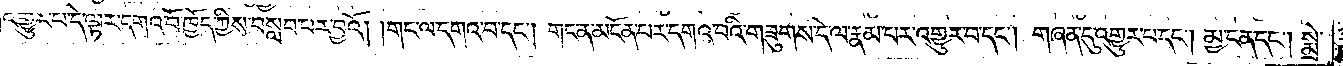འགྱུར་བ་དེ་ལྟར་དགའ་བོ་ཁྱོད་ཀྱིས་བསླབ་པར་བྱའོ། །གང་ལ་དགའ་བ་དང༌། གང་ན་མངོན་པར་དགའ་བའི་གཟུགས་དེ་ལ་རྣམ་པར་འགྱུར་བ་དང༌། གཞན་དུ་འགྱུར་བ་དང༌། མྱ་ངན་དང༌། སྨྲེ་
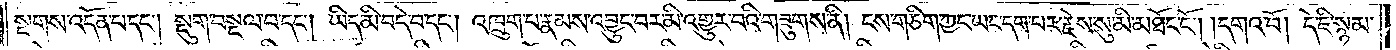སྔགས་འདོན་པ་དང༌། སྡུག་བསྔལ་བ་དང༌། ཡིད་མི་བདེ་བ་དང༌། འཁྲུག་པ་རྣམས་འབྱུང་བར་མི་འགྱུར་བའི་གཟུགས་ནི། ངས་གཅིག་ཀྱང་ཡང་དག་པར་རྗེས་སུ་མི་མཐོང་ངོ༌། །དགའ་བོ། དེ་ཇི་སྙམ་
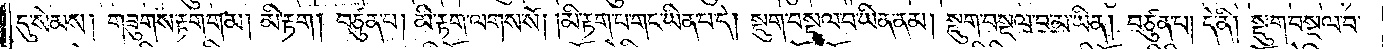དུ་སེམས། གཟུགས་རྟག་གམ། མི་རྟག། བཙུན་པ། མི་རྟག་ལགས་སོ། །མི་རྟག་པ་གང་ཡིན་པ་དེ། སྡུག་བསྔལ་བ་ཡིན་ནམ། སྡུག་བསྔལ་བ་མ་ཡིན། བཙུན་པ། དེ་ནི། སྡུག་བསྔལ་བ་
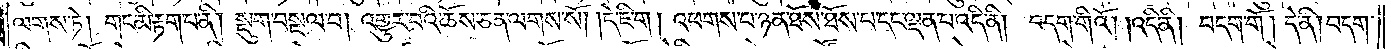ལགས་ཏེ། གང་མི་རྟག་པ་ནི། སྡུག་བསྔལ་བ། འགྱུར་བའི་ཆོས་ཅན་ལགས་སོ། །དེ་ཇི་ག། འཕགས་པ་ཉན་ཐོས་ཐོས་པ་དང་ལྡན་པ་འདི་ནི། བདག་གིའོ། །འདི་ནི། བདག་གོ །དེ་ནི། བདག་
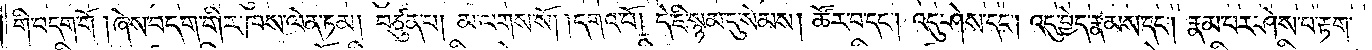གི་བདག་གོ །ཞེས་བདག་གིར་ཁས་ལེན་ཏམ། བཙུན་པ། མ་ལགས་སོ། །དགའ་བོ། དེ་ཇི་སྙམ་དུ་སེམས། ཚོར་བ་དང༌། འདུ་ཤེས་དང༌། འདུ་བྱེད་རྣམས་དང༌། རྣམ་པར་ཤེས་པ་རྟག་
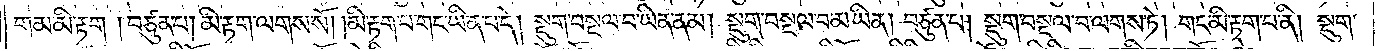གམ་མི་རྟག །བཙུན་པ། མི་རྟག་ལགས་སོ། །མི་རྟག་པ་གང་ཡིན་པ་དེ། སྡུག་བསྔལ་བ་ཡིན་ནམ། སྡུག་བསྔལ་བ་མ་ཡིན། བཙུན་པ། སྡུག་བསྔལ་བ་ལགས་ཏེ། གང་མི་རྟག་པ་ནི། སྡུག་
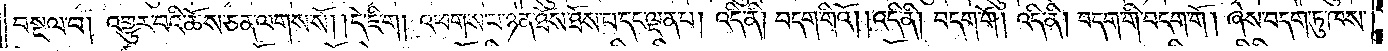བསྔལ་བ། འགྱུར་བའི་ཆོས་ཅན་ལགས་སོ། །དེ་ཇི་ག། འཕགས་པ་ཉན་ཐོས་ཐོས་པ་དང་ལྡན་པ། འདི་ནི། བདག་གིའོ། །འདི་ནི། བདག་གོ །འདི་ནི། བདག་གི་བདག་གོ །ཞེས་བདག་ཏུ་ཁས་
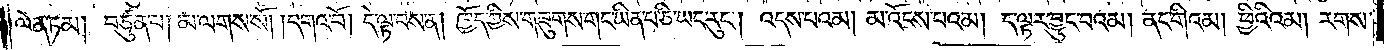ལེན་ཏམ། བཙུན་པ། མ་ལགས་སོ། །དགའ་བོ། དེ་ལྟ་བས་ན། ཁྱོད་ཀྱིས་གཟུགས་གང་ཡིན་པ་ཅི་ཡང་རུང༌། འདས་པའམ། མ་འོངས་པའམ། ད་ལྟར་བྱུང་བའམ། ནང་གིའམ། ཕྱིའིའམ། རགས་
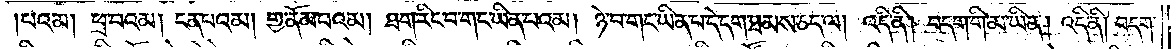།པའམ། ཕྲ་བའམ། ངན་པའམ། གྱ་ནོམ་པའམ། ཐག་རིང་བ་གང་ཡིན་པའམ། ཉེ་བ་གང་ཡིན་པ་དེ་དག་ཐམས་ཅད་ལ། འདི་ནི། བདག་གི་མ་ཡིན། འདི་ནི། བདག་
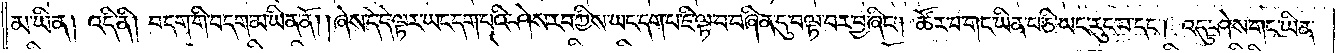མ་ཡིན། འདི་ནི། བདག་གི་བདག་མ་ཡིན་ནོ། །ཞེས་དེ་དེ་ལྟར་ཡང་དག་པའི་ཤེས་རབ་ཀྱིས་ཡང་དག་པ་ཇི་ལྟ་བ་བཞིན་དུ་བལྟ་བར་བྱ་ཞིང༌། ཚོར་བ་གང་ཡིན་པ་ཅི་ཡང་རུང་བ་དང༌། འདུ་ཤེས་གང་ཡིན་
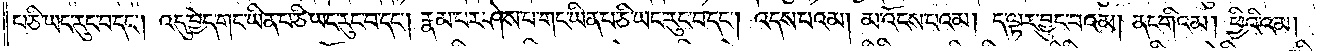པ་ཅི་ཡང་རུང་བ་དང༌། འདུ་བྱེད་གང་ཡིན་པ་ཅི་ཡང་རུང་བ་དང༌། རྣམ་པར་ཤེས་པ་གང་ཡིན་པ་ཅི་ཡང་རུང་བ་དང༌། འདས་པའམ། མ་འོངས་པའམ། ད་ལྟར་བྱུང་བའམ། ནང་གིའམ། ཕྱིའི་འམ།
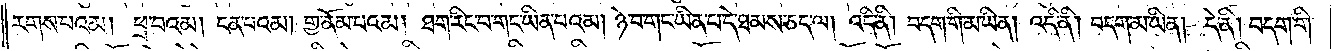རགས་པའམ། ཕྲ་བའམ། ངན་པའམ། གྱ་ནོམ་པའམ། ཐག་རིང་བ་གང་ཡིན་པའམ། ཉེ་བ་གང་ཡིན་པ་དེ་ཐམས་ཅད་ལ། འདི་ནི། བདག་གི་མ་ཡིན། འདི་ནི། བདག་མ་ཡིན། དེ་ནི། བདག་གི་
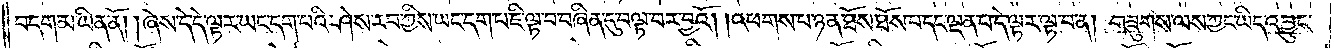བདག་མ་ཡིན་ནོ། །ཞེས་དེ་དེ་ལྟར་ཡང་དག་པའི་ཤེས་རབ་ཀྱིས་ཡང་དག་པ་ཇི་ལྟ་བ་བཞིན་དུ་བལྟ་བར་བྱའོ། །འཕགས་པ་ཉན་ཐོས་ཐོས་པ་དང་ལྡན་པ་དེ་ལྟར་ལྟ་བ་ན། གཟུགས་ལས་ཀྱང་ཡིད་འབྱུང་
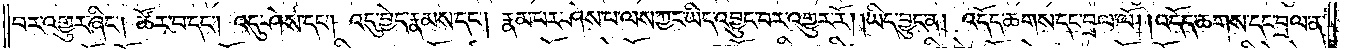བར་འགྱུར་ཞིང༌། ཚོར་བ་དང༌། འདུ་ཤེས་དང༌། འདུ་བྱེད་རྣམས་དང༌། རྣམ་པར་ཤེས་པ་ལས་ཀྱང་ཡིད་འབྱུང་བར་འགྱུར་རོ། །ཡིད་བྱུང་ན། འདོད་ཆགས་དང་བྲལ་ལོ། །འདོད་ཆགས་དང་བྲལ་ན་
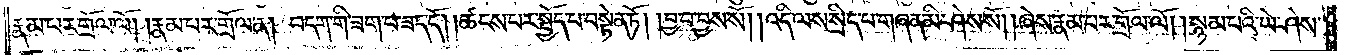རྣམ་པར་གྲོལ་ལོ། །རྣམ་པར་གྲོལ་ན། བདག་གི་ཟག་པ་ཟད་དོ། །ཚངས་པར་སྤྱོད་པ་བསྟེན་ཏོ། །བྱ་བ་བྱས་སོ། །འདི་ལས་སྲིད་པ་གཞན་མི་ཤེས་སོ། །ཞེས་རྣམ་པར་གྲོལ་བའོ། །སྙམ་པའི་ཡེ་ཤེས་
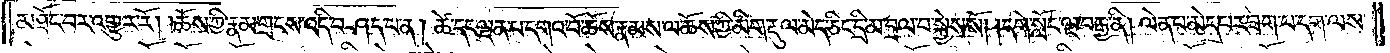མཐོང་བར་འགྱུར་རོ། །ཆོས་ཀྱི་རྣམ་གྲངས་འདི་བཤད་པ་ན། ཚེ་དང་ལྡན་པ་དགའ་བོ་ཆོས་རྣམས་ལ་ཆོས་ཀྱི་མིག་རྡུལ་མེད་ཅིང་དྲི་མ་བྲལ་བ་སྐྱེས་སོ། །དགེ་སློང་ལྔ་བརྒྱ་ནི། ལེན་པ་མེད་པར་ཟག་པ་དག་ལས་
